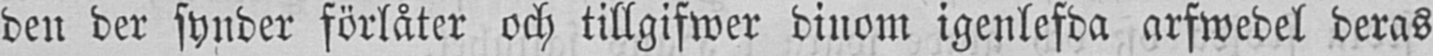den der synder förlåter och tillgifwer dinom igenlefda arfwedel deras
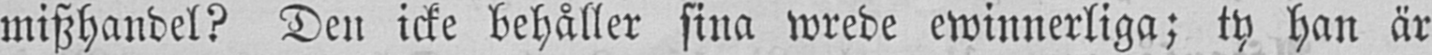miszhandel? Den icke behåller sina wrede ewinnerliga; ty han är
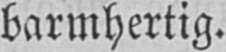barmhertig.
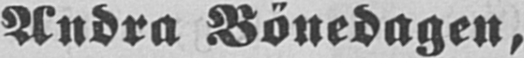Andra Bönedagen,
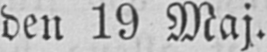den 19 Maj.
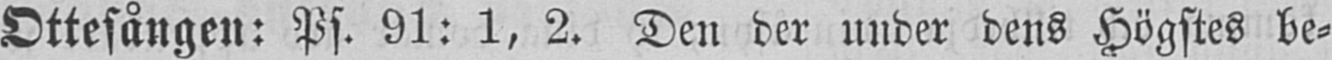Ottesången: Ps. 91: 1, 2. Den der under dens Högstes be-
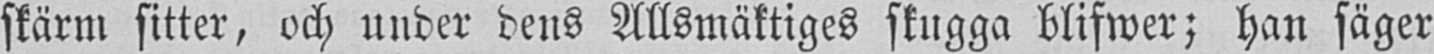skärm sitter, och under dens Allsmäktiges skugga blifwer; han säger
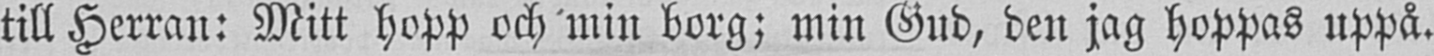till Herran: Mitt hopp och min borg; min Gud, den jag hoppas uppå.
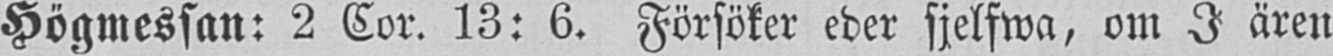Högmessan: 2 Cor. 13: 6. Försöker eder sjelfwa, om I ären
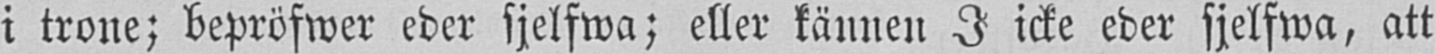i trone; bepröfwer eder sjelfwa; eller kännen I icke eder sjelfwa, att
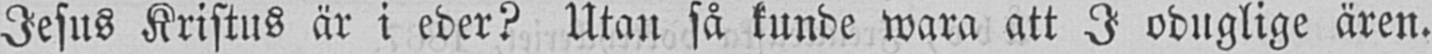Jesus Kristus är i eder? Utan så kunde wara att I oduglige ären.
